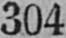304
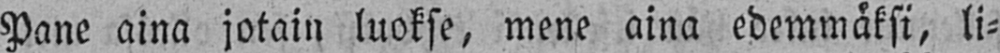Pane aina jotain luokse, mene aina edemäksi, li-
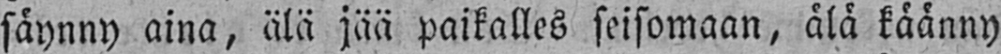säynny aina, älä jää paikalles seisomaan, älä käänny
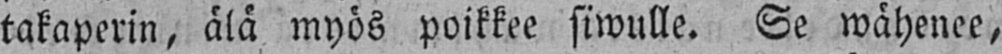takaperin, älä myös poikkee siwulle. Se wähenee,
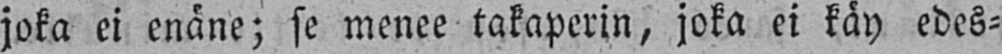joka ei enäne; se menee takaperin, joka ei käy edes-
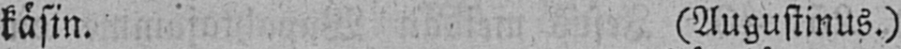käsin. (Augustinus.)
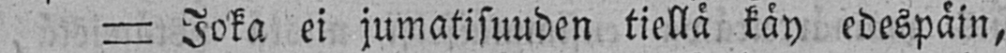— Joka ei jumatisuuden tiellä käy edespäin,
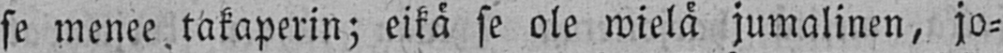se menee, takaperin; eikä se ole wielä jumalinen, jo-
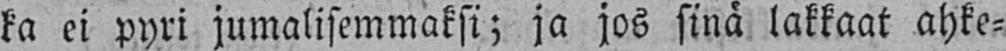ka ei pyri jumalisemmaksi; ja jos sinä lakkaat ahke-
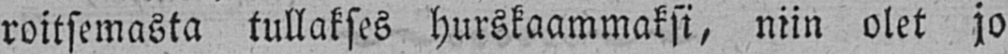roitsemasta tullakses hurskaammaksi, niin olet jo
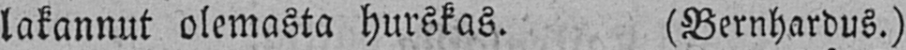lakannut olemasta hurskas. (Bernhardus.)
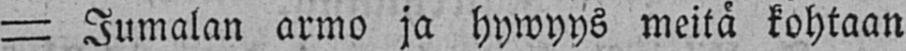— Jumalan armo ja hywyys meitä kohtaan
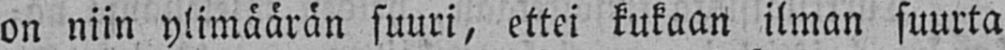on niin ylimäärän suuri, ettei kukaan ilman suurta
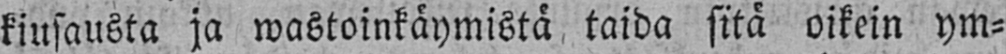kiusausta ja wastoinkäymistä taida sitä oikein ym-
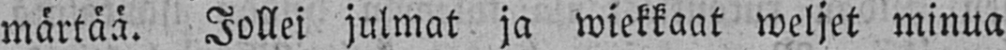märtää. Jollei julmat ja wiekkaat weljet minua
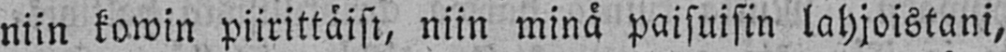niin kowin piirittäisi, niin minä paisuisin lahjoistani,
